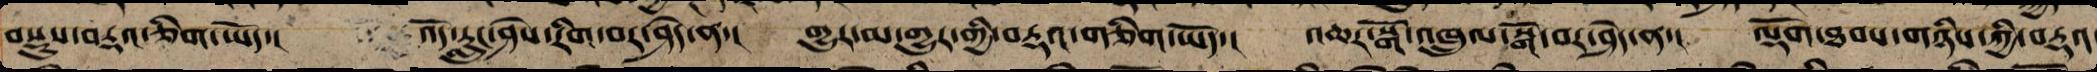བསྡུས་བརྡའ་གཅིག་ཡོད་། འོད་རླུང་ཤེས་རིག་བར་ཤེད་ན་། གྱུར་མ་གྱུར་གྱི་བརྡའ་གཅིག་ཡོད་། འཆར་སྒོ་འཁྲུལ་སྒོའི་བར་ཤེད་ན་། ལྡོག་ཐབས་གཉིས་ཀྱི་བརྡའ་
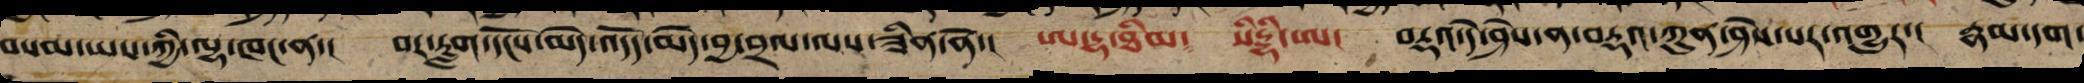བསམ་ཡས་ཀྱི་ལྷ་ཁང་ན་། བར་རླག་དངོས་མེད་འདོད་མེད་བྱ་བྲལ་ལས་ཟིན་ནོ་། ཨ་དྷ་ཐིམ། སིདྡྷི་ཨ། བརྡའ་དེ་ཤེས་ན་བརྡའ་ཀུན་ཤེས་པར་འགྱུར་། རྣམ་དག་
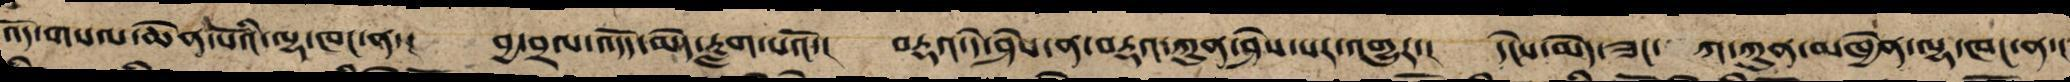འོད་གསལ་ཆེན་པོའི་ལྷ་ཁང་ན་། བྱ་བྲལ་འདོད་མེད་རླག་པའོ་། བརྡའ་དེ་ཤེས་ན་བརྡའ་ཀུན་ཤེས་པར་འགྱུར་། དངོས་མེད་ཟང་ཀ་ཀུན་མཁྱེན་ལྷ་ཁང་ན་།
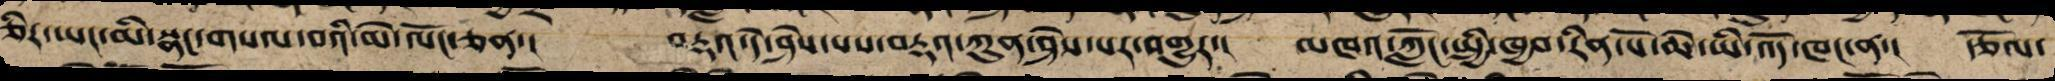ཅིར་ཡང་མི་སྣང་གསལ་བའི་མེ་ལོང་ཅན་། བརྡའ་དེ་ཤེས་པས་བརྡའ་ཀུན་ཤེས་པར་འགྱུར་། མཁའ་ཀློང་སྤྱི་ཁྱབ་རིན་པོ་ཆེ་ཡི་འོད་ཁང་ན་། རྩོལ་
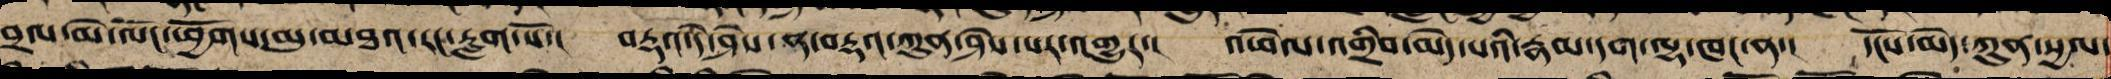བྲལ་མེ་ལོང་ཕྱོགས་མུ་མཐའ་རང་རླག་པོ་། བརྡའ་དེ་ཤེས་ན་བརྡའ་ཀུན་ཤེས་པར་འགྱུར་། འཕེལ་འགྲིབ་མེད་པའི་རྣམ་དག་ལྷ་ཁང་ན་། དངོས་མེད་ཀུན་སྱལ་
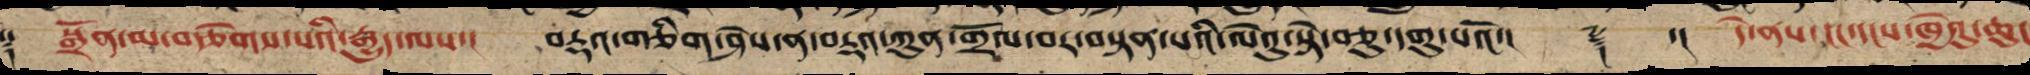༈ སྒྲོན་མ་བརྩེགས་པའི་རྒྱུད་ལས་། བརྡའ་གཅིག་ཤེས་ན་བརྡའ་ཀུན་གྲོལ་བར་བསྟན་པའི་ལེའུ་སྟེ་བཅུ་དགུ་པའོ་།། ༈ ་།། དེ་ནས་ངང་དངས་ཁྱེའུ་ཆུང་
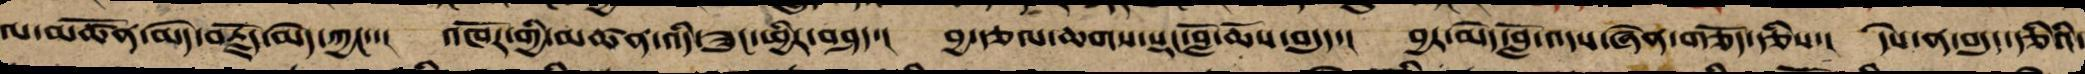ལ་མཚོན་མེད་བརྗོད་མེད་ཀྱང་་། འཁོར་གྱིས་མཚན་འདི་གཟུང་ཕྱིར་བཤད་། བྱ་རྩལ་ཆགས་སྡང་བློ་ཆོས་བདུད་། བྱར་མེད་བློ་འདས་ཞེན་གཅོད་རྩི་། དེས་ན་བདུད་རྩིའི་
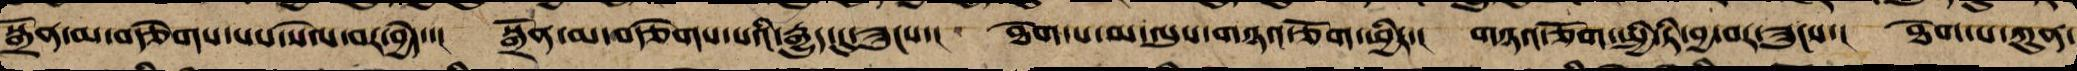སྒྲོན་མ་བརྩེགས་པས་སེལ་བར་བྱེད་། སྒྲོན་མ་བརྩེགས་པའི་རྒྱུད་དུ་ཟུངས་། ཐེག་པ་མ་ལུས་གཉའ་ཅོག་ཕྱིར་། གཉའ་ཅོག་སྤྱི་ཏི་བྱ་བར་ཟུངས་། ཐེག་པ་ཀུན་
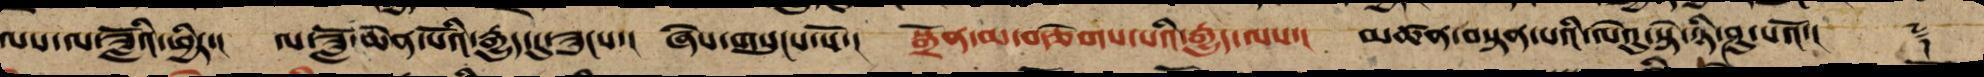ལས་ལ་ཟློའི་ཕྱིར་། ལ་ཟློ་ཆེན་པོའི་རྒྱུད་དུ་ཟུངས་། ཞེས་གསུངས་སོ་། སྒྲོན་མ་བརྩེགས་པའི་རྒྱུད་ལས་། མཚན་བསྟན་པའི་ལེའུ་སྟེ་ཉི་ཤུ་པའོ་།། ༈
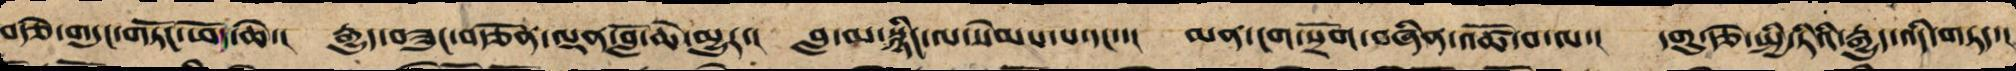བརྩེ་གདུང་གཏོང་ཕོད་ཆེ་། རྒྱུད་བཟུང་བརྩོན་ལྡན་བློ་ཆེ་མྱུར་། བླ་མ་སྙིང་ལ་སེམས་པ་དང་་། མན་ངག་སྲོག་བཞིན་འཚོ་བ་ལ་། དགུ་རྩེ་སྤྱི་ཏིའི་རྒྱུད་འདི་གཏད་།
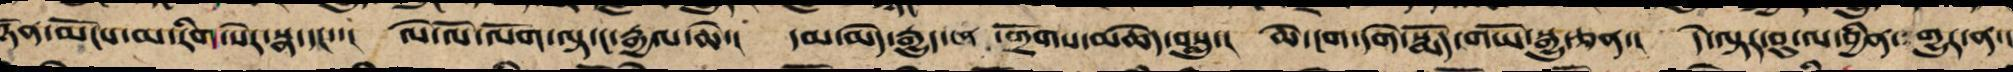ཉོན་མོངས་མ་རིག་སེར་སྣ་དང་། ལེ་ལོ་ལོག་ལྟ་ང་རྒྱལ་ཆེ་། དམ་མེད་རྒྱུད་ངན་གྲོགས་མཆེད་བསླུ་། ཆེ་ངག་དགེ་སྨོད་གཡོ་སྒྱུ་ཅན་། དེ་ལྟ་བུ་ལ་བྱིན་གྱུར་ན་།
